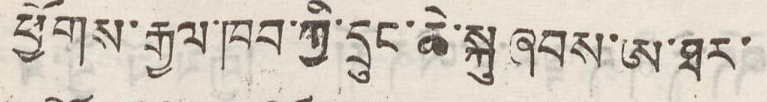ཕྱོགས་རྒྱལ་ཁབ་ཀྱི་དྲུང་ཆེ་སྐུ་ཞབས་ཨ་ཐར་
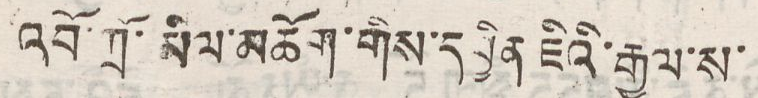འབོ་ཀྲོ་མིལ་མཆོག་གིས་དབྱིན ཇིའི་རྒྱལ་ས་
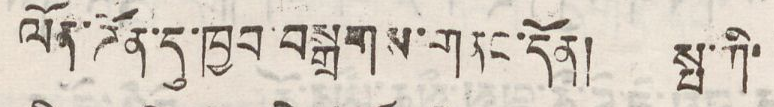ལོན་ཌོན་དུ་ཁྱབ་བསྒྲགས་གནང་དོན། སྤ་ཀི་
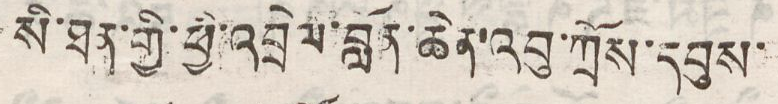སི་ཐན་གྱི་ཕྱི་འབྲེལ་བློན་ཆེན་འབུ་ཀྲོས་དབུས་
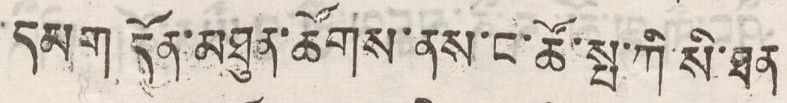དམག དོན་མཐུན་ཚོགས་ནས་ང་ཚོ་སྤ་ཀི་སི་ཐན
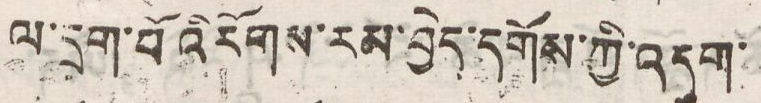ལ་དྲག་བོའི་རོགས་རམ་བྱེད་དགོས་ཀྱི་འདུག་
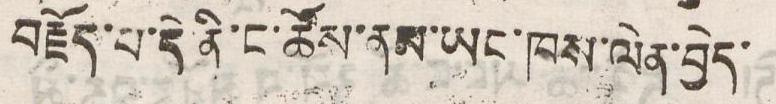བརྗོད་པ་དེ་ནི་ང་ཚོས་ནམ་ཡང་ཁས་ལེན་བྱེད་
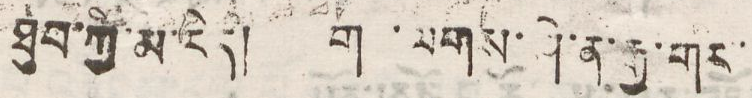ཐུབ་ཀྱི་མ་རེད། ག ་ལགས་ཤེ་ན་རྒྱ་གར་
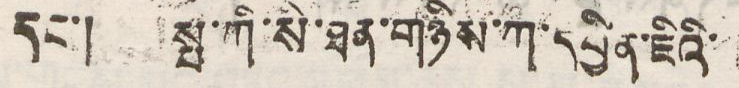དང་། སྤ་ཀི་སི་ཐན་གཉིས་ཀ་དབྱིན་ཇིའི་
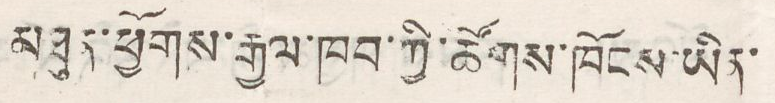མཐུན་ཕྱོགས་རྒྱལ་ཁབ་ཀྱི་ཚོགས་ཁོངས་ཡིན་
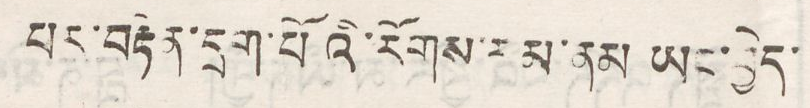པར་བརྟེན་དྲག་པོའི་རོགས་རམ་ནམ ཡང་བྱེད་
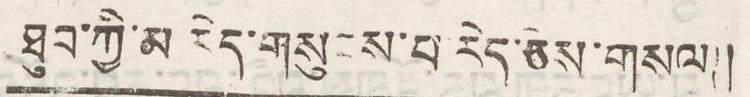ཐུབ་ཀྱི་མ རེད་གསུངས་པ་རེད་ཅེས་གསལ།།
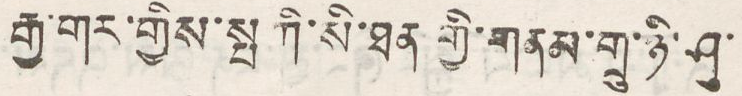རྒྱ་གར་གྱིས་སྤ ཀི་སི་ཐན་གྱི་གནམ་གྲུ་ཉི་ཤུ་
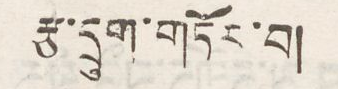རྩ་དྲུག་གཏོར་བ།
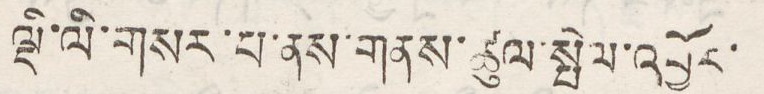ལྡི་ལི་གསར་པ་ནས་གནས་ཚུལ་སྤེལ་འབྱོར་
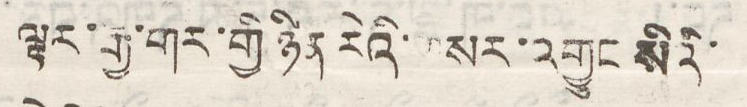ལྟར་རྒྱ་གར་གྱི་ཉིན་རེའི་གསར་འགྱུར་སིའི་
